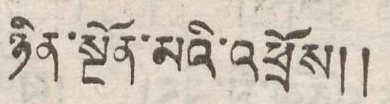ཉན་སྔོན་མའི་འཕྲོས།།
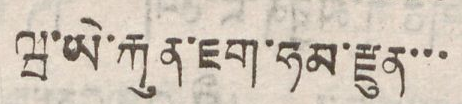ཝ་ཡེ་རྐུན་ཇག་ཧམ་རྫུན་་་
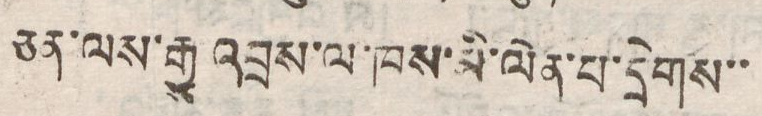ཅན་ལས་རྒྱུ་འབྲས་ལ་ཁས་མི་ལེན་པ་དྲེགས་་
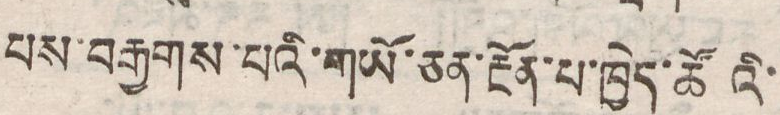པས་བརྒྱགས་པའི་གྱོ་ཅན་རྔོན་པ་ཁྱེད་ཚོའི་
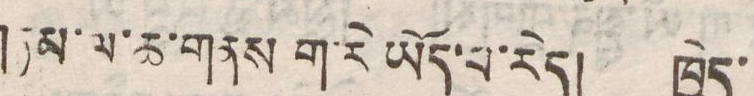གཏམ་ལ་ཆ་གནས ག་རེ ཡོད་པ་རེད། ཁྱེད་
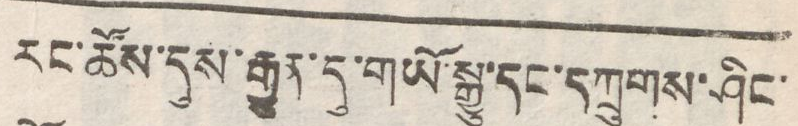རང་ཆོས་དུས་རྒྱུན་དུ་གཡོ་སྒྱུ་དང་དཀྲུགས་ཤིང་
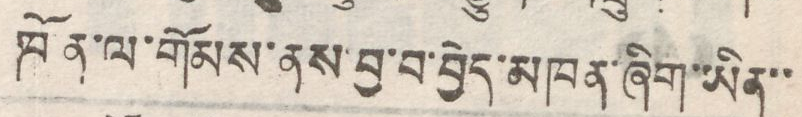ཁོན་ལ་གོམས་ནས་བྱ་བ་བྱེད་མཁན་ཞིག་ཡིན་་
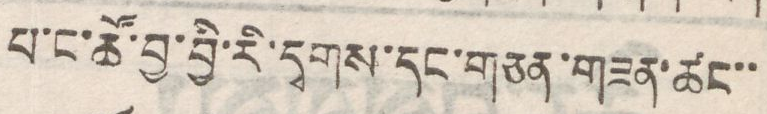པ་ང་ཚོ་བྱ་བྱི་རི་དྭགས་དང་གཅན་གཟན་ཚང་་
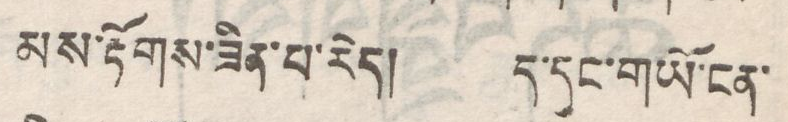མས་རྟོགས་ཟིན་པོ་རེད། ད་དུང་གཡོ་ངན་
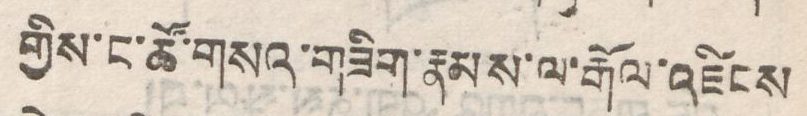གྱིས་ང་ཚོ་གསའ་གཟིག་རྣམས་ལ་རྒོལ་འཛིངས
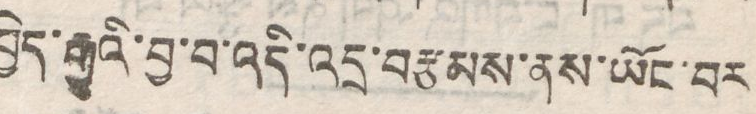བྱེད་རྒྱུ་བྱ་བ་འདི་འདྲ་བརྩམས་ནས་ཡོང་བར
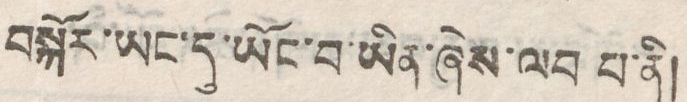བསྐོར་ཡང་དུ་ཡོང་བ་ཡིན་ཞེས་ལབ པ་ནི།
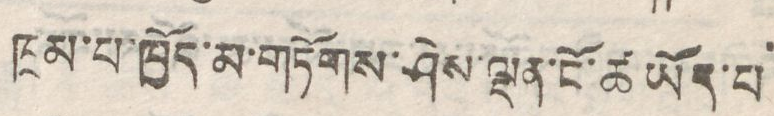ཁྲམ་པ་ཁྱོད་མ་གཏོགས་ཤེས་ལྡན་ངོ་ཚ ཡོད་པ
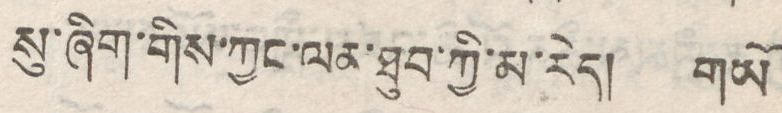སུ་ཞིག་གིས་ཀྱང་ལམ་ཐུབ་ཀྱི་མ་རེད། གཡོ་
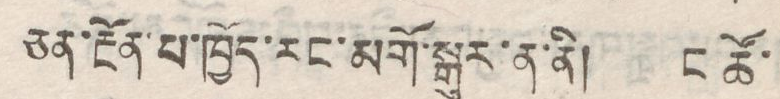ཅན་རྔོན་པ་ཁྱོད་རང་མགོ་སྒུར་ན་ནི། ང ཚོ་
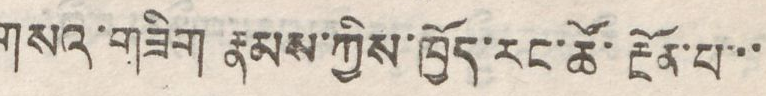གསའ་གཟིག རྣམས་ཀྱིས་ཁྱོད་རང་ཚོ་རྔོན་པ་་་
